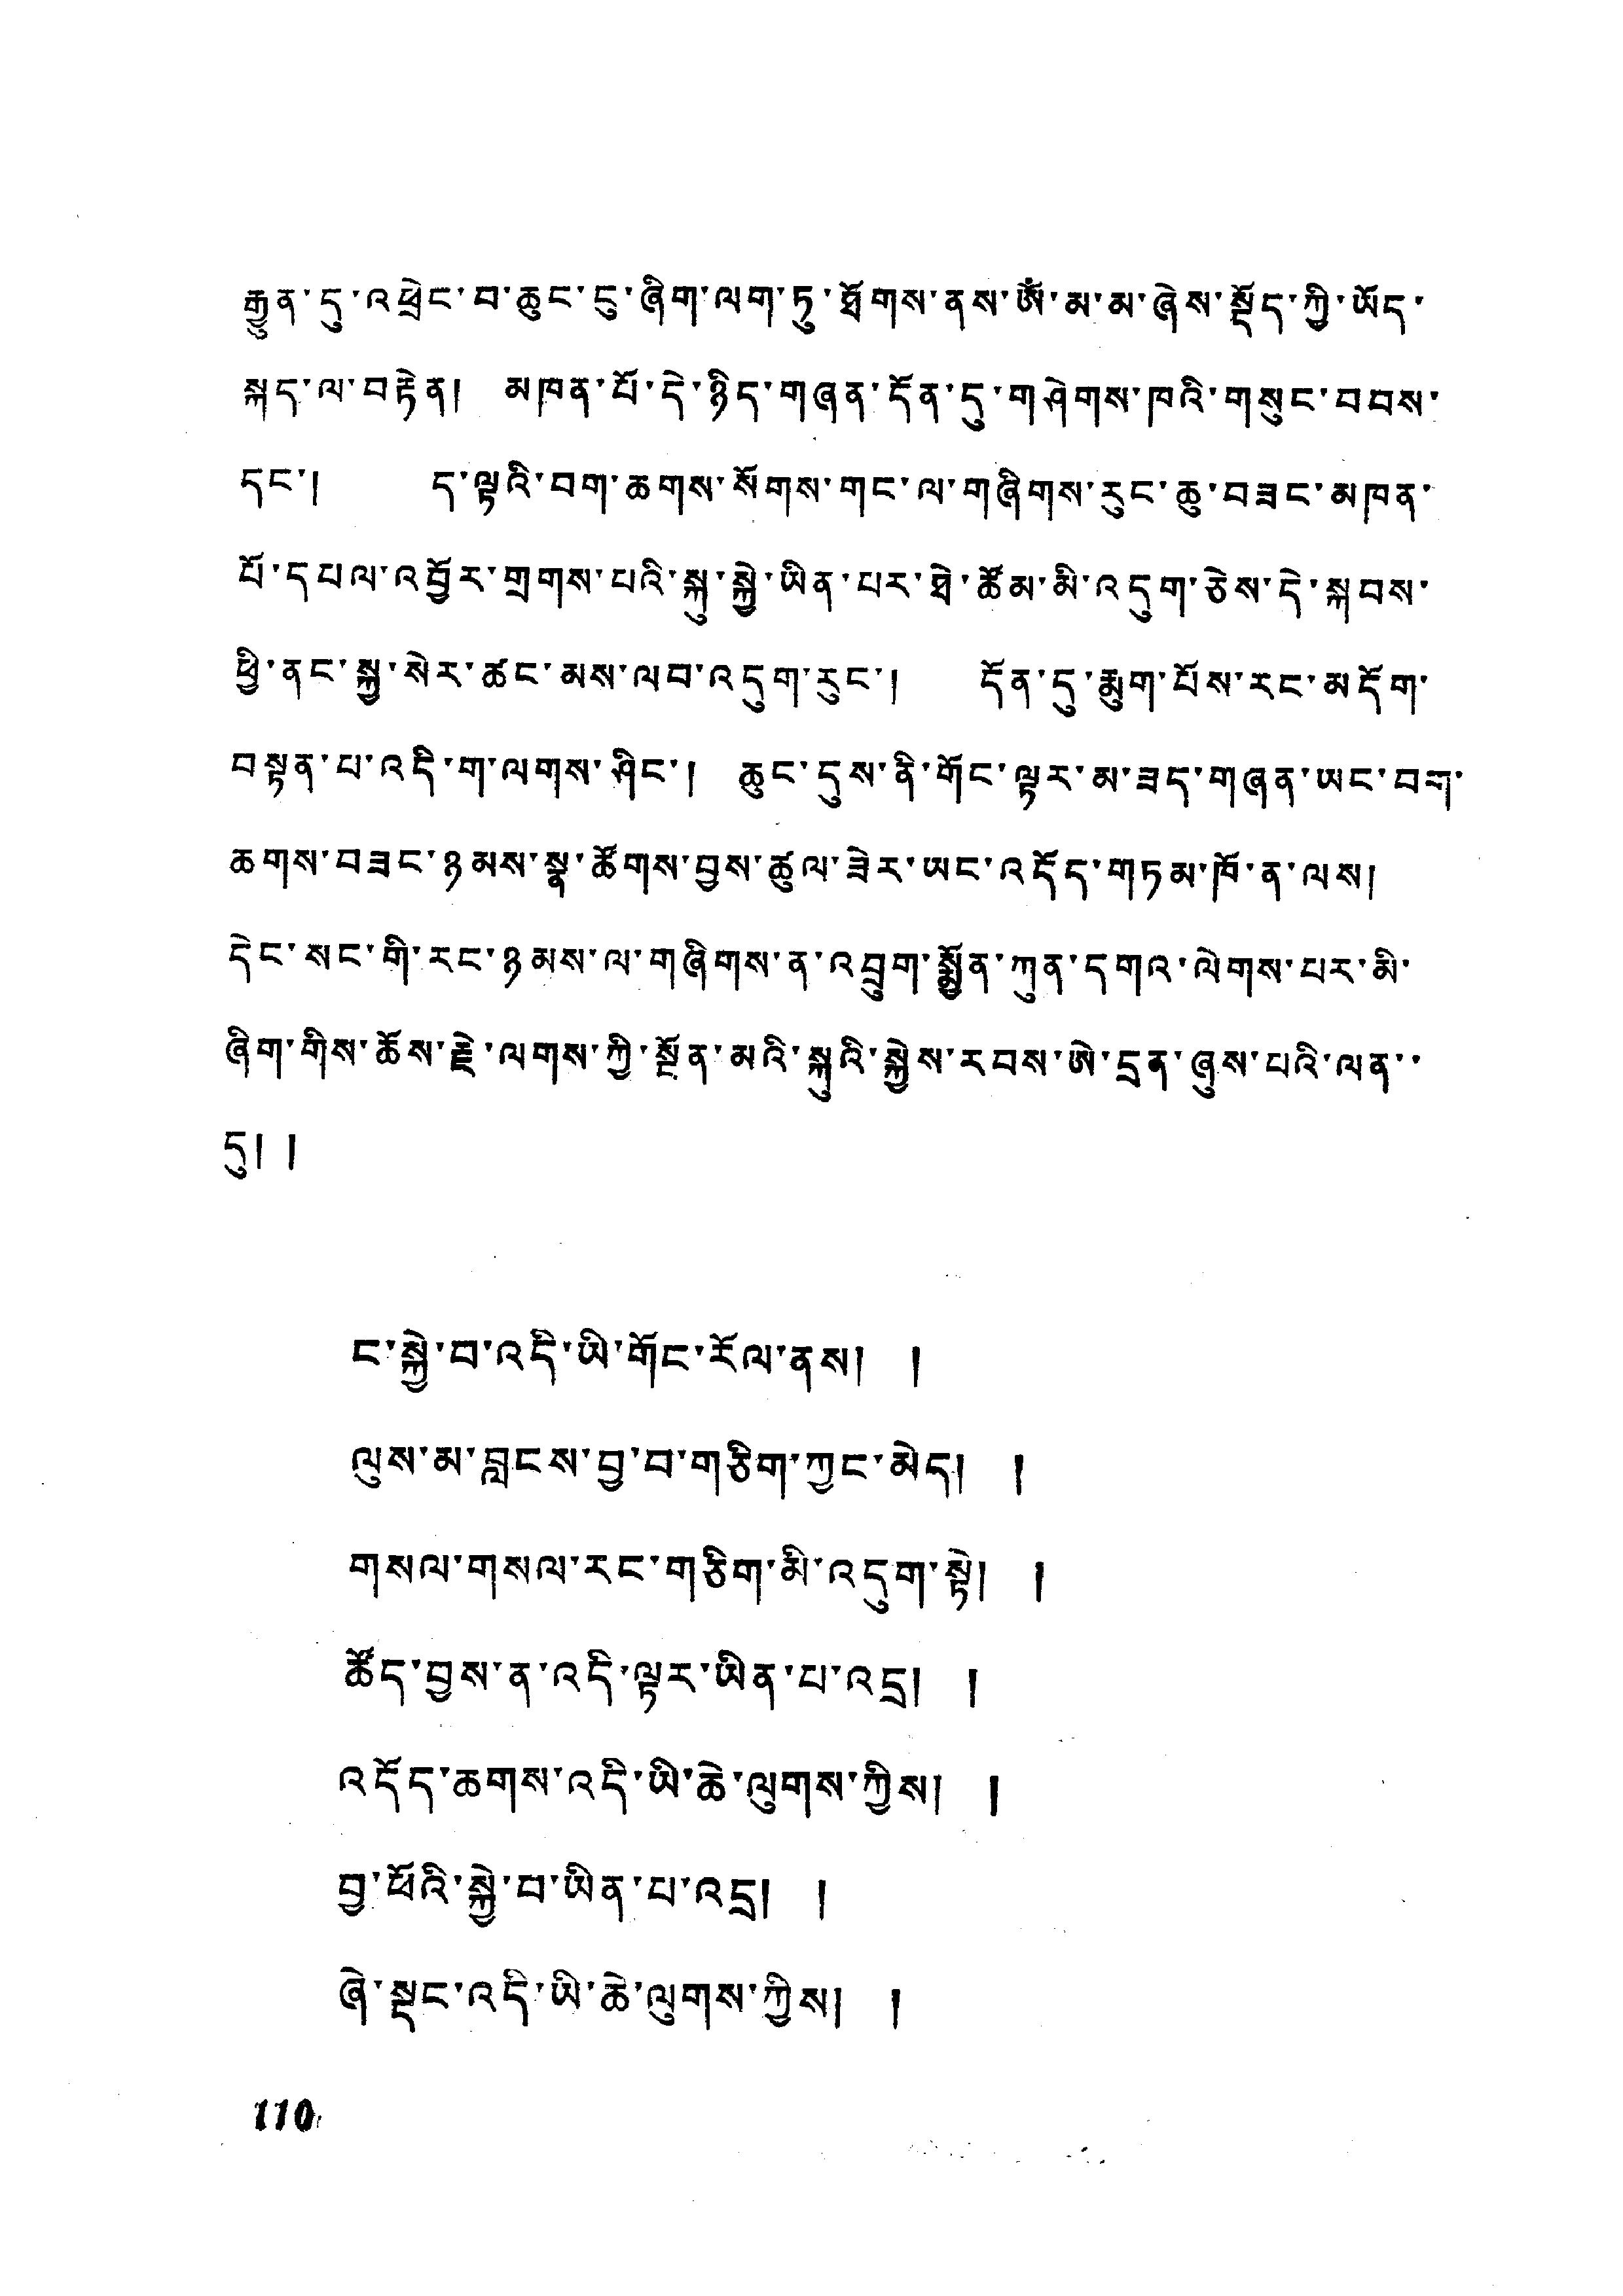རྒྱུན་དུ་འཕྲེང་བ་ཆུང་ངུ་ཞིག་ལག་ཏུ་ཐོགས་ནས་ཨོཾ་མ་མ་ཞེས་སྡོད་ཀྱི་ཡོད་
སྐད་ལ་བརྟེན། མཁན་པོ་དེ་ཉིད་གཞན་དོན་དུ་གཤེགས་ཁའི་གསུང་བབས་
དང་། ད་ལྟའི་བག་ཆགས་སོགས་གང་ལ་གཞིགས་རུང་ཆུ་བཟང་མཁན་
པོ་དཔལ་འབྱོར་གྲགས་པའི་སྐུ་སྐྱེ་ཡིན་པར་ཐེ་ཚོམ་མི་འདུག་ཅེས་དེ་སྐབས་
ཕྱི་ནང་སྐྱ་སེར་ཚང་མས་ལབ་འདུག་རུང་། དོན་དུ་རྨུག་པོས་རང་མདོག་
བསྟན་པ་འདི་ག་ལགས་ཤིང་། ཆུང་དུས་ནི་གོང་ལྟར་མ་ཟད་གཞན་ཡང་བག་
ཆགས་བཟང་ཉམས་སྣ་ཚོགས་བྱས་ཚུལ་ཟེར་ཡང་འདོད་གཏམ་ཁོ་ན་ལས།
དེང་སང་གི་རང་ཉམས་ལ་གཞིགས་ན་འབྲུག་སྨྱོན་ཀུན་དགའ་ལེགས་པར་མི་
ཞིག་གིས་ཆོས་རྗེ་ལགས་ཀྱི་སྔོན་མའི་སྐུའི་སྐྱེས་རབས་ཨེ་དྲན་ཞུས་པའི་ལན་་
དུ། །
ང་སྐྱེ་བ་འདི་ཡི་གོང་རོལ་ནས། །
ལུས་མ་བླངས་བྱ་བ་གཅིག་ཀྱང་མེད། །
གསལ་གསལ་རང་གཅིག་མི་འདུག་སྟེ། །
ཚོད་བྱས་ན་འདི་ལྟར་ཡིན་པ་འདྲ། །
འདོད་ཆགས་འདི་ཡི་ཆེ་ལུགས་ཀྱིས། །
བྱ་ཕོའི་སྐྱེ་བ་ཡིན་པ་འདྲ། །
ཞེ་སྡང་འདི་ཡི་ཆེ་ལུགས་ཀྱིས། །
110
